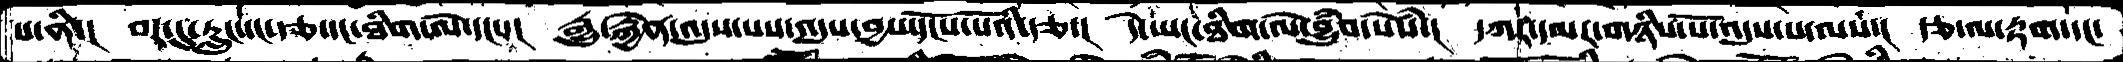པ་ནི་།  བར་དུ་རླུང་དང་རྩ་དང་ཐིག་ལེ་དང་་།  རྒྱུ་རྐྱེན་འདུས་པས་འདུས་བྱས་དངོས་པོའི་རྩ་།  དེ་ཡང་ཐིག་ལེ་བྱུཾབ་སེཾས་།  དཀར་དམར་གཉིས་པོ་འདུས་པ་ལས་།  རྩ་ལ་རྟག་དང་
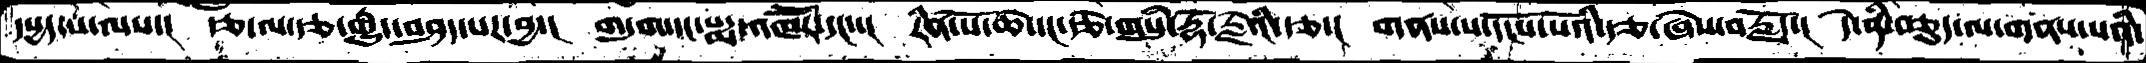དཔྱད་པ་ལས་།  རྩ་ལ་རྩ་རྒྱུད་བཤད་པར་བྱ་།  གདུག་དང་པདྨ་འཁཽར་དང་་།  རིན་པོ་ཆེ་དང་རྩེ་གསུཾ་རྡོ་རྗེའི་རྩ་།  གནས་པ་དངོས་པོའི་རྩ་ཞེས་བརྗོད་།  དེ་ནི་བཅུད་ལ་གནས་པའི་
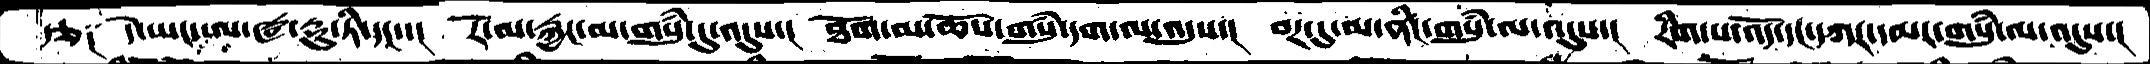རྩ༑  དེ་ཡང་ཨ་ཝ་རྡུ་ཏི་དང་་།  རོ་མ་རྐྱང་མ་གསུཾ་དུ་འདུས་།  ཐོག་མ་ཆོས་གསུཾ་དག་ལ་འདུས་།  བར་དུ་མ་ནིང་གསུཾ་ལ་འདུས་།  རིག་པ་འོད་དང་དཀར་དམར་གསུཾ་ལ་འདུས་།
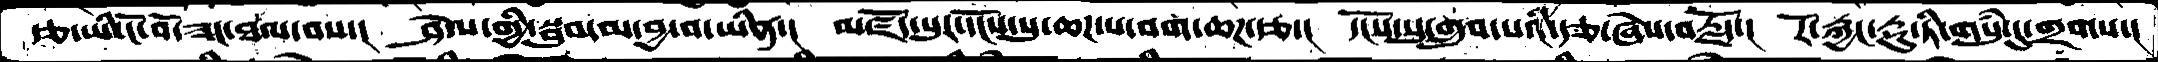རྩ་ཡི་ངོ་བོ་ཟང་ཐལ་བས་།  ཤེལ་གྱི་སྦུབ་མ་བྱ་བ་ཡིན་།  མཛོད་པུར་ངོས་སུ་ཆཌ་པ་བག་ཆཌ་རྩ་།  དངོས་སུ་གྲུབ་པའི་རྩ་ཞེས་བརྗོད་།  རོ་རྐྱང་རྡུ་ཏི་གསུཾ་དུ་གྲགས་།
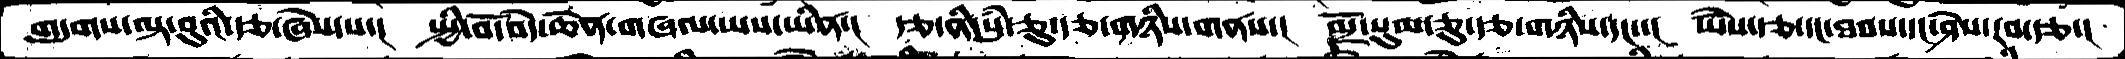གདུགས་ལྟ་བུའི་རྩ་ཞེས་པ་།  སྤྱི་བོོ་བདེ་ཆེན་གཞལ་ཡས་ཡིན་།  རྩ་ནི་སུཾ་ཅུ་རྩ་གཉིས་གནས་།  མྲོ་སུམ་ཅུ་རྩ་གཉིས་དང་་།  ཡཻས་རྩ་དང་ཐབས་དང་ཤེས་རབ་རྩ་།
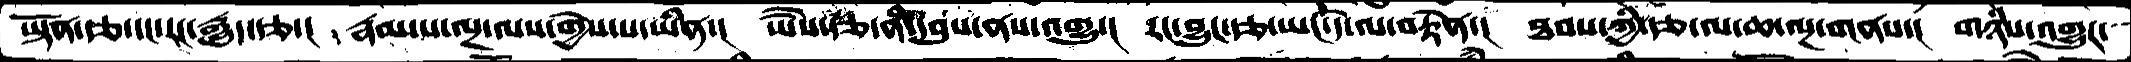ཡྟོན་རྩ་དང་རང་རྒྱུད་རྩ་།  རྣམ་པ་ལྔ་ལས་གྱེས་པ་ཡིན་།  ཡཻས་རྩ་ནི་དབུས་ནས་འགྱུར་།  རང་བྱུང་རྩ་ཡང་དེ་ལ་བརྟེན་།  ཐབས་ཀྱི་རྩ་ལ་ཆ་ལྔ་གནས་། གཉིས་འགྱུར་
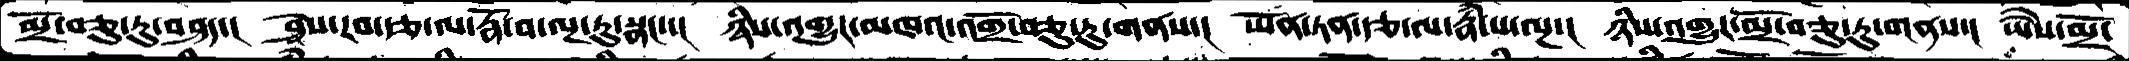མྲོ་བཅུ་རུ་བཤད་།  ཤེས་རབ་རྩ་ལ་རྣོ་བ་ལྔ་རུ་སྣང་་།   ཉིས་འགྱུར་མཁའ་འགྲོ་བཅུ་རུ་གནས་།  ཡོན་ཏན་རྩ་ལ་རྣཾ་པ་ལྔ་།   ཉིས་འགྱུར་མྲོ་བཅུ་རུ་གནས་།  ཡཻས་མྲོ་
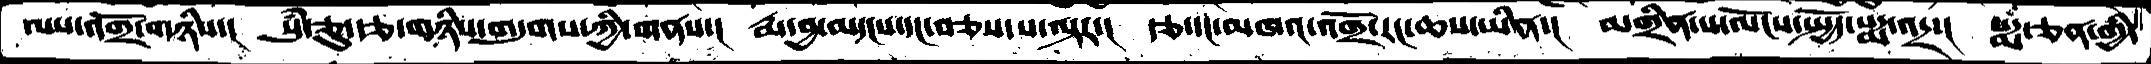ལས་འགྲོ་གཉིས་།  སུཾ་བཅུ་རྩ་གཉིས་གདུགས་ཀྱི་གནས་།  རྨ་བྱ་མདངས་དང་བཅས་པ་ལྟར་།  རྩ་དང་མཁའ་འགྲོ་རང་ཆས་ཡིན་།  མགྲིན་པ་ལོངས་སྤྱོད་པདྨ་འདྲ་།   པདྨ་ཅན་གྱི་
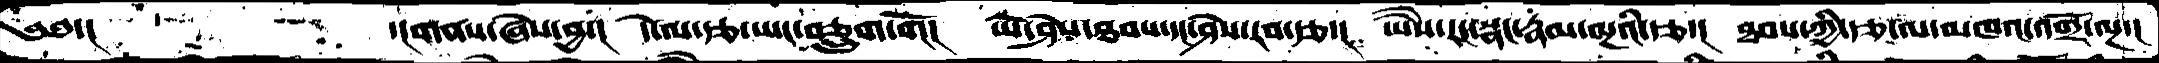༄༅་།         ་།གནས་ཞེས་བྱ་།  དེ་ལ་རྩ་ཡང་བཅྲུག་གོ།   ཡེ་ཤེས་ཐབས་དང་ཤེས་རབ་རྩ་།   ཡཻས་རང་སྣང་རྣམ་ལྔའི་རྩ་།  ཐབས་ཀྱི་རྩ་ལ་མཁའ་འགྲོ་ལྔ་།
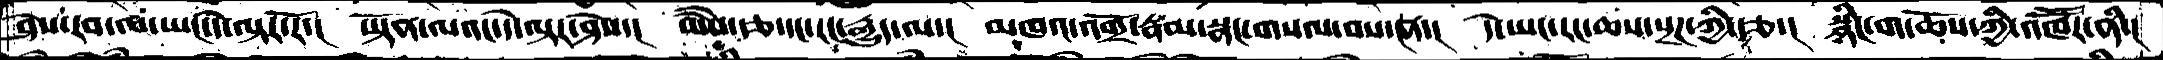ཤེས་རབ་ལ་ཡང་དེ་ལྟར་རོ་།  ཡྟོན་ལའང་དེ་ལྟར་ཤེས་།  ཡཻས་རྩ་དང་རང་རྒྱུད་ལ་།   མཁའ་འགྲོ་རྣམ་སྣང་གསལ་བས་ན་།  དེ་ཡང་རང་ཆས་སྔཌ་ཀྱི་རྩ་།  སྙིང་ག་ཆོས་ཀྱི་འཁཽར་ནི་།
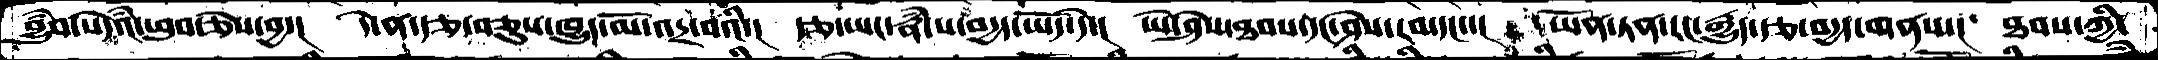བྱུབཾ་སེདཾའ་ཕུབ་ཅེས་བྱ་།  དེ་ན་རྩ་བཅུས་ཁྱུད་མོ་འདྲ་བའི་།  རྩ་ཡང་རྣཾ་པ་བདྱད་ཡོད་དེ་།   ཡེ་ཤེས་ཐབས་དང་ཤེས་རབ་དང་་།  ཡོ་ཏན་རང་རྒྱུད་རྩ་བདྱད་གནས་།  ཐབས་ཀྱི་
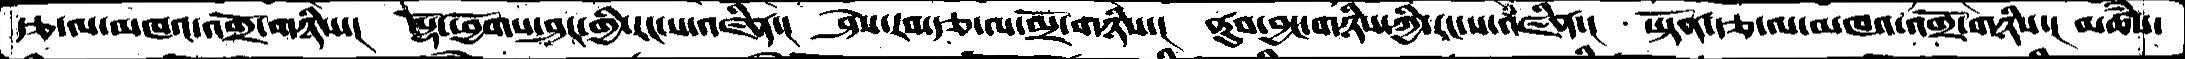རྩ་ལ་མཁའ་འགྲོ་གཉིས་།  ལྷོ་ཕྱོགས་ཤར་གྱི་རང་ས་འཛིན་།  ཤེས་རབ་རྩ་ལ་མྲོ་གཉིས་།  ནུབ་བྱང་གཉིས་ཀྱི་རང་ས་འཛིན་།  ཡྟོན་རྩ་ལ་མཁའ་འགྲོ་གཉིས་།  མཚཾས་
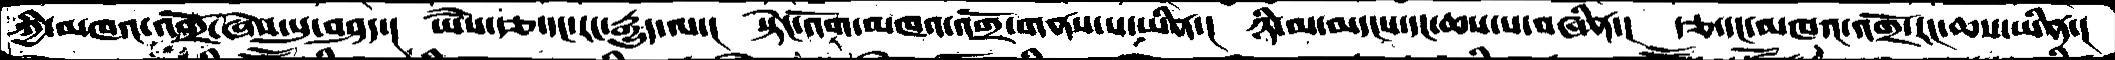ཀྱི་མཁའ་འགྲོ་ཞེས་སུ་བཤད་།  ཡཻས་རྩ་དང་རང་རྒྱུད་ལ་།  སྟོང་འོག་མཁའ་འགྲོ་གནས་པ་ཡིན་།  ཉི་མ་མདངས་དང་ཆས་པ་བཞིན་།  རྩ་དང་མཁའ་འགྲོ་རང་ཆས་ཡིན་།
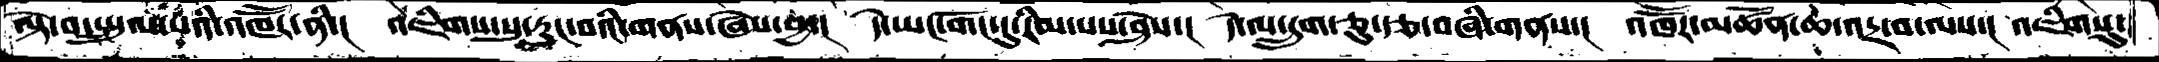ལྟེ་བ་སྤྲུལ་པའི་འཁཽར་ནི་།  འཇིགས་སུ་རུང་བའི་གནས་ཞེས་བྱ་།  དེ་ཡང་གོང་དུ་རིམ་པས་ཤེས་།  དེ་ལ་དྲུག་ཅུ་རྩ་བཞི་གནས་།  འཁཽར་མཚོན་ཆ་འདྲ་བ་ལས་།  འཇིགསུ་
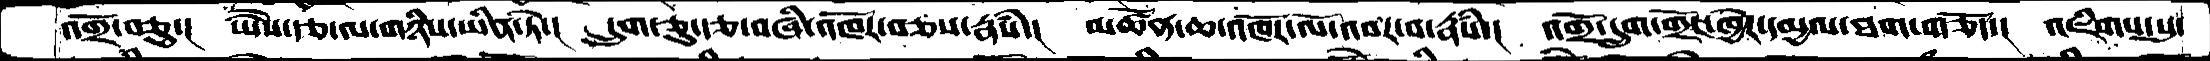འགྲོ་བཅུ་།  ཡཻས་རྩ་ལ་གཉིས་ཡིན་ཏེ་།  དྲུག་ཅུ་རྩ་བཞི་འཁོར་བཅས་རྣཾས་།  མཚོན་ཆ་འཁོར་ལོ་འབར་བ་རྣཾས་།  འགྲོ་དྲུག་གྲོང་ཁྱེར་དམྱལ་ཐག་གཅོད་།  འཇིགས་སུ་
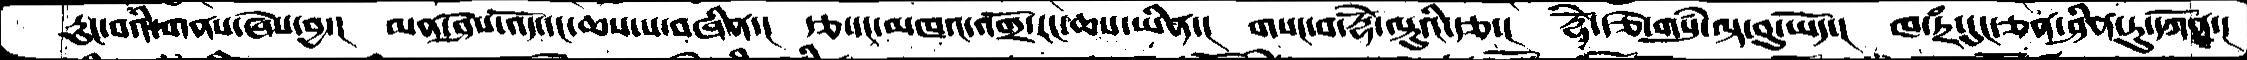རུང་བའི་གནས་ཞེས་བྱ་།  མན་ཤེས་འོད་དང་ཆས་པ་བཞིན་།  རྩ་དང་མཁའ་འགྲོ་རང་ཆས་ཡིན་།  གསང་བ་རྡོེ་ལྟུའི་རྩ་།  རྡོེ་རྩེ་གསུཾ་ལྟ་བུ་ཡོད་།  ཁ་ཏྲཾ་དུང་ཅན་ཤིན་ཏུ་དཀོན་།
